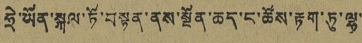ཧྲེ་ཡོན་སྐལ་ཏོ་བསྟན་ནས་སྔོན་ཆད་ང་ཚོས་རྟག་ཏུ་ལྷ་
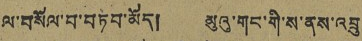ལ་བསོལ་བ་བཏབ་མོད། མུའུ་གང་གི་ས་ནས་འབྲུ
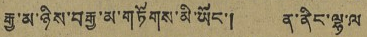རྒྱ་མ་ཉིས་བརྒྱ་མ་གཏོགས་མི་ཡོང་། ན་ནིང་ལྷ་ལ
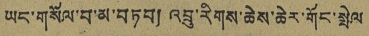ཡང་གསོལ་བ་མ་བཏབ། འབྲུ་རིགས་ཆེས་ཆེར་གོང་སྤེལ
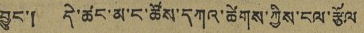བྱུང་། དེ་ཚང་མ་ང་ཚོས་དཀའ་ཚེགས་ཀྱིས་ངལ་རྩོལ
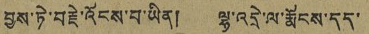བྱས་ཏེ་བརྗེ་འོངས་བ་ཡིན། ལྷ་འདྲེ་ལ་རྨོངས་དད་
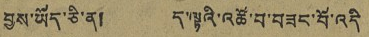བྱས་ཡོད་ཅིན། ད་ལྟའི་འཚོ་བ་བཟང་པོ་འདི
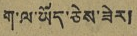ག་ལ་ཡོད་ཅེས་ཟེར།
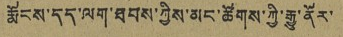རྨོངས་དད་ལག་ཐབས་ཀྱིས་མང་ཚོགས་ཀྱི་རྒྱུ་ནོར་
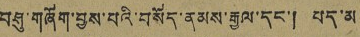བཤུ་གཞོག་བྱས་པའི་བསོད་ནམས་རྒྱལ་དང་། པད་མ
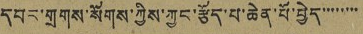དབང་གྲགས་སོགས་ཀྱིས་ཀྱང་རྩོད་པ་ཆེན་པོ་བྱེད་་་་་་་
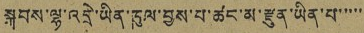སྐབས་ལྷ་འདྲེ་ཡིན་ཁུལ་བྱས་པ་ཚང་མ་རྫུན་ཡིན་པ་་་་་
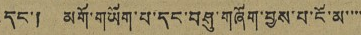དང་། མགོ་གཡོག་པ་དང་བཤུ་གཞོག་བྱས་པ་ངོ་མ་་་་
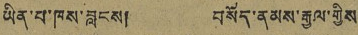ཡིན་པ་ཁས་བླངས། བསོད་ནམས་རྒྱལ་གྱིས་
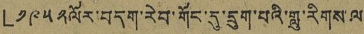「༡༩༥༢ལོར་བདག་རེབ་གོང་དུ་དྲུག་པའི་གླུ་རིགས་ལ
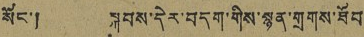སོང་། སྐབས་དེར་བདག་གིས་སྙན་གྲགས་ཐོབ
